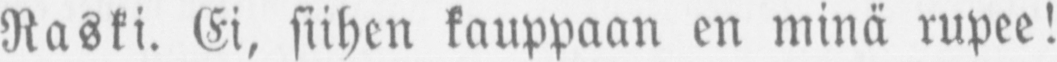Raski. Ei, siihen kauppaan en minä rupee!
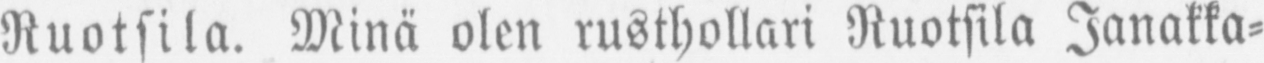Ruotsila. Minä olen rusthollari Ruotsilla Janakka-
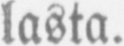lasta.
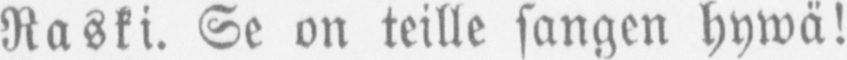Raski. Se on teille sangen hywä!
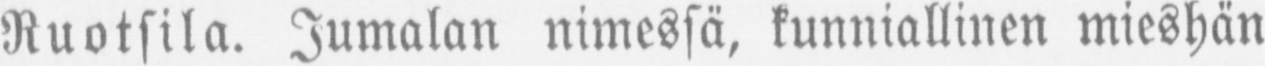Ruotsila. Jumalan nimessä, kunniallinen mieshän
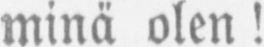minä olen!
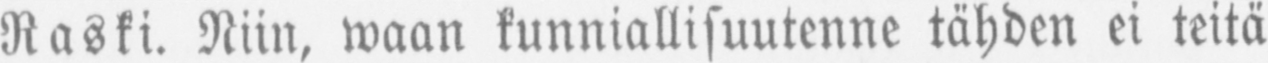Raski. Niin, waan kunniallisuutenne tähden ei teitä
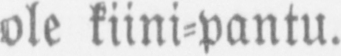ole kiini-pantu.
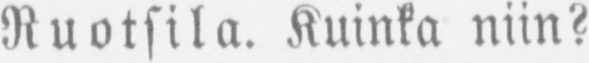Ruotsila. Kuinka niin?
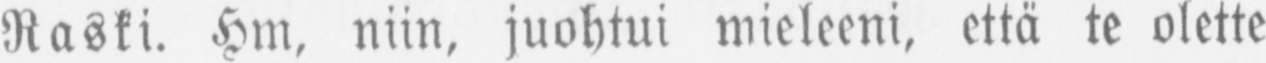Raski. Hm, niin, juohtui mieleeni, että te olette
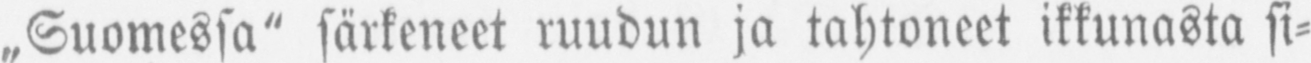„Suomessa" särkeneet ruudun ja tahtoneet ikkunasta si-
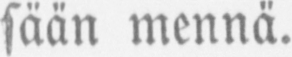sään mennä.
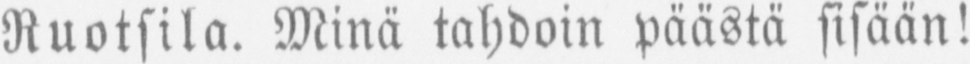Ruotsila. Minä tahdoin päästä sisään!
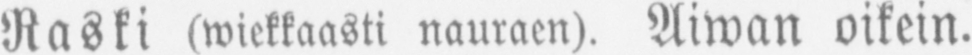Raski (wiekkaasti nauraen). Aiwan oikein.
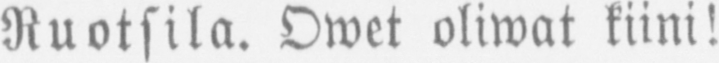Ruotsila. Owet oliwat kiini!
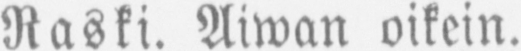Raski. Aiwan oikein.
